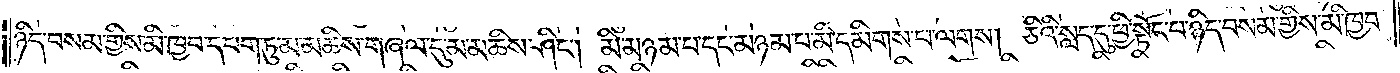ཉིད་བསམ་གྱིས་མི་ཁྱབ་དཔག་ཏུ་མ་མཆིས་གཞལ་དུ་མ་མཆིས་ཤིང༌། མི་མཉམ་པ་དང་མཉམ་པ་མི་དམིགས་པ་ལགས། ཅིའི་སླད་དུ་ཕྱི་སྟོང་པ་ཉིད་བསམ་གྱིས་མི་ཁྱབ་
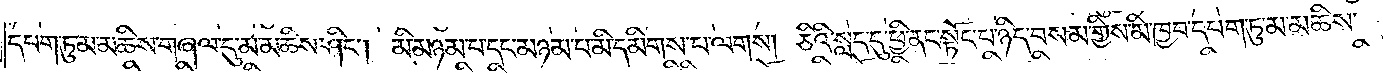དཔག་ཏུ་མ་མཆིས་གཞལ་དུ་མ་མཆིས་ཤིང༌། མི་མཉམ་པ་དང་མཉམ་པ་མི་དམིགས་པ་ལགས། ཅིའི་སླད་དུ་ཕྱི་ནང་སྟོང་པ་ཉིད་བསམ་གྱིས་མི་ཁྱབ་དཔག་ཏུ་མ་མཆིས་
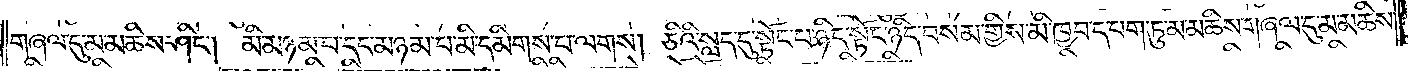གཞལ་དུ་མ་མཆིས་ཤིང༌། མི་མཉམ་པ་དང་མཉམ་པ་མི་དམིགས་པ་ལགས། ཅིའི་སླད་དུ་སྟོང་པ་ཉིད་སྟོང་པ་ཉིད་བསམ་གྱིས་མི་ཁྱབ་དཔག་ཏུ་མ་མཆིས་གཞལ་དུ་མ་མཆིས་
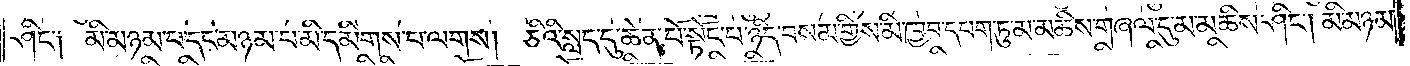ཤིང༌། མི་མཉམ་པ་དང་མཉམ་པ་མི་དམིགས་པ་ལགས། ཅིའི་སླད་དུ་ཆེན་པོ་སྟོང་པ་ཉིད་བསམ་གྱིས་མི་ཁྱབ་དཔག་ཏུ་མ་མཆིས་གཞལ་དུ་མ་མཆིས་ཤིང༌། མི་མཉམ་
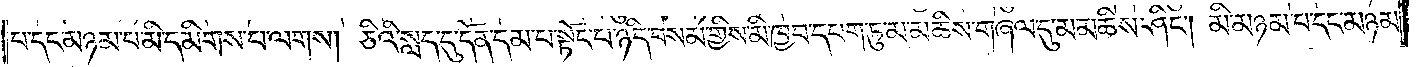པ་དང་མཉམ་པ་མི་དམིགས་པ་ལགས། ཅིའི་སླད་དུ་དོན་དམ་པ་སྟོང་པ་ཉིད་བསམ་གྱིས་མི་ཁྱབ་དཔག་ཏུ་མ་མཆིས་གཞལ་དུ་མ་མཆིས་ཤིང༌། མི་མཉམ་པ་དང་མཉམ་
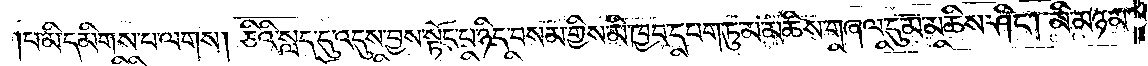པ་མི་དམིགས་པ་ལགས། ཅིའི་སླད་དུ་འདུས་བྱས་སྟོང་པ་ཉིད་བསམ་གྱིས་མི་ཁྱབ་དཔག་ཏུ་མ་མཆིས་གཞལ་དུ་མ་མཆིས་ཤིང༌། མི་མཉམ་
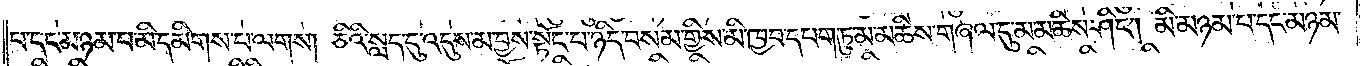པ་དང་མཉམ་པ་མི་དམིགས་པ་ལགས། ཅིའི་སླད་དུ་འདུས་མ་བྱས་སྟོང་པ་ཉིད་བསམ་གྱིས་མི་ཁྱབ་དཔག་ཏུ་མ་མཆིས་གཞལ་དུ་མ་མཆིས་ཤིང༌། མི་མཉམ་པ་དང་མཉམ་
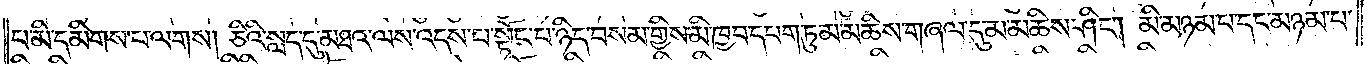པ་མི་དམིགས་པ་ལགས། ཅིའི་སླད་དུ་མཐའ་ལས་འདས་པ་སྟོང་པ་ཉིད་བསམ་གྱིས་མི་ཁྱབ་དཔག་ཏུ་མ་མཆིས་གཞལ་དུ་མ་མཆིས་ཤིང༌། མི་མཉམ་པ་དང་མཉམ་པ་
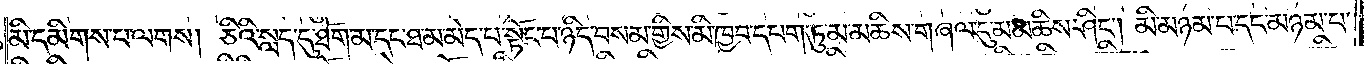མི་དམིགས་པ་ལགས། ཅིའི་སླད་དུ་ཐོག་མ་དང་ཐ་མ་མེད་པ་སྟོང་པ་ཉིད་བསམ་གྱིས་མི་ཁྱབ་དཔག་ཏུ་མ་མཆིས་གཞལ་དུ་མ་མཆིས་ཤིང༌། མི་མཉམ་པ་དང་མཉམ་པ་
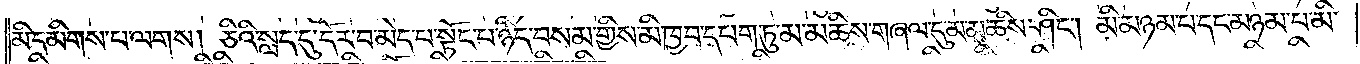མི་དམིགས་པ་ལགས། ཅིའི་སླད་དུ་དོར་བ་མེད་པ་སྟོང་པ་ཉིད་བསམ་གྱིས་མི་ཁྱབ་དཔག་ཏུ་མ་མཆིས་གཞལ་དུ་མ་མཆིས་ཤིང༌། མི་མཉམ་པ་དང་མཉམ་པ་མི་
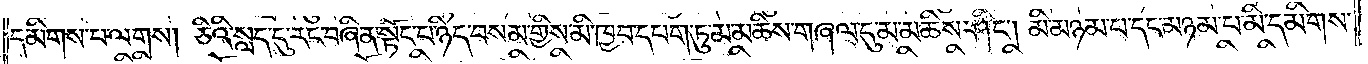དམིགས་པ་ལགས། ཅིའི་སླད་དུ་རང་བཞིན་སྟོང་པ་ཉིད་བསམ་གྱིས་མི་ཁྱབ་དཔག་ཏུ་མ་མཆིས་གཞལ་དུ་མ་མཆིས་ཤིང༌། མི་མཉམ་པ་དང་མཉམ་པ་མི་དམིགས་
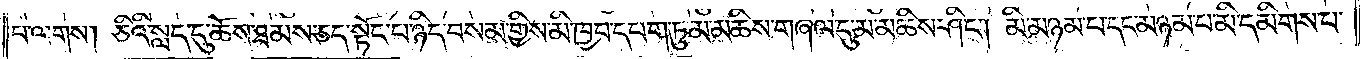པ་ལགས། ཅིའི་སླད་དུ་ཆོས་ཐམས་ཅད་སྟོང་པ་ཉིད་བསམ་གྱིས་མི་ཁྱབ་དཔག་ཏུ་མ་མཆིས་གཞལ་དུ་མ་མཆིས་ཤིང༌། མི་མཉམ་པ་དང་མཉམ་པ་མི་དམིགས་པ་
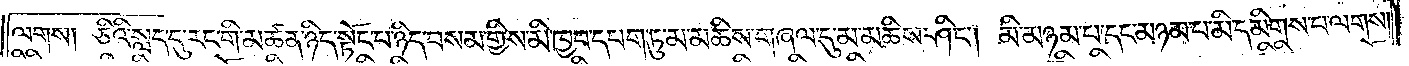ལགས། ཅིའི་སླད་དུ་རང་གི་མཚན་ཉིད་སྟོང་པ་ཉིད་བསམ་གྱིས་མི་ཁྱབ་དཔག་ཏུ་མ་མཆིས་གཞལ་དུ་མ་མཆིས་ཤིང༌། མི་མཉམ་པ་དང་མཉམ་པ་མི་དམིགས་པ་ལགས།
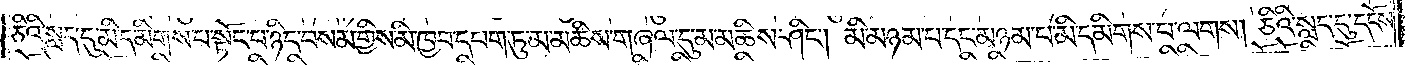ཅིའི་སླད་དུ་མི་དམིགས་པ་སྟོང་པ་ཉིད་བསམ་གྱིས་མི་ཁྱབ་དཔག་ཏུ་མ་མཆིས་གཞལ་དུ་མ་མཆིས་ཤིང༌། མི་མཉམ་པ་དང་མཉམ་པ་མི་དམིགས་པ་ལགས། ཅིའི་སླད་དུ་དངོས་
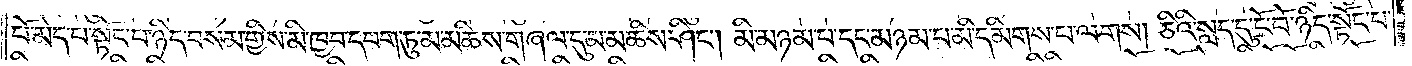པོ་མེད་པ་སྟོང་པ་ཉིད་བསམ་གྱིས་མི་ཁྱབ་དཔག་ཏུ་མ་མཆིས་གཞལ་དུ་མ་མཆིས་ཤིང༌། མི་མཉམ་པ་དང་མཉམ་པ་མི་དམིགས་པ་ལགས། ཅིའི་སླད་དུ་ངོ་བོ་ཉིད་སྟོང་པ་
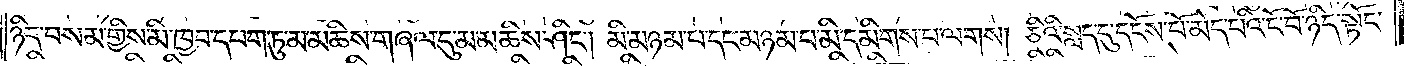ཉིད་བསམ་གྱིས་མི་ཁྱབ་དཔག་ཏུ་མ་མཆིས་གཞལ་དུ་མ་མཆིས་ཤིང༌། མི་མཉམ་པ་དང་མཉམ་པ་མི་དམིགས་པ་ལགས། ཅིའི་སླད་དུ་དངོས་པོ་མེད་པའི་ངོ་བོ་ཉིད་སྟོང་
